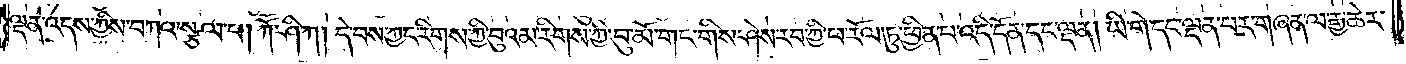ལྡན་འདས་ཀྱིས་བཀའ་སྩལ་པ། ཀཽ་ཤི་ཀ། དེ་བས་ཀྱང་རིགས་ཀྱི་བུའམ་རིགས་ཀྱི་བུ་མོ་གང་གིས་ཤེས་རབ་ཀྱི་ཕ་རོལ་ཏུ་ཕྱིན་པ་འདི་དོན་དང་ལྡན། ཡི་གེ་དང་ལྡན་པར་གཞན་ལ་རྒྱ་ཆེར་
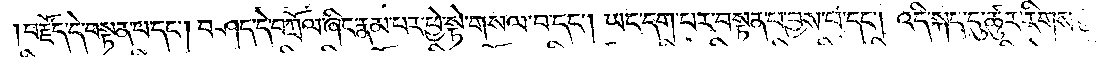བརྗོད་དེ་བསྟན་པ་དང༌། བཤད་དེ་བཀྲོལ་ཞིང་རྣམ་པར་ཕྱེ་སྟེ་གསལ་བ་དང༌། ཡང་དག་པར་བསྟན་པ་བྱས་པ་དང༌། འདི་སྐད་དུ་ཚུར་རིགས་ཀྱི་བུ་
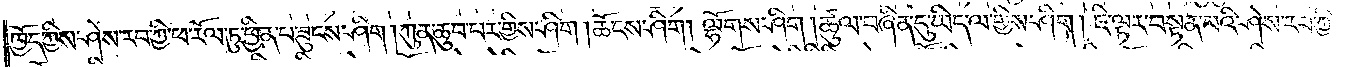ཁྱོད་ཀྱིས་ཤེས་རབ་ཀྱི་ཕ་རོལ་ཏུ་ཕྱིན་པ་ཟུངས་ཤིག །ཀུན་ཆུབ་པར་གྱིས་ཤིག། ཆོངས་ཤིག །ལྷོགས་ཤིག །ཚུལ་བཞིན་དུ་ཡིད་ལ་གྱིས་ཤིག། ཇི་ལྟར་བསྟན་པའི་ཤེས་རབ་ཀྱི་
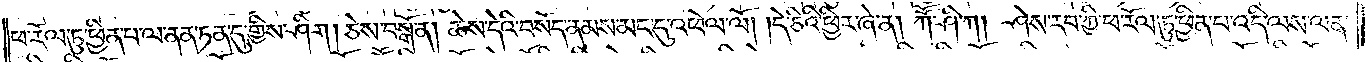ཕ་རོལ་ཏུ་ཕྱིན་པ་ལ་ནན་ཏན་དུ་གྱིས་ཤིག། ཅེས་བསྒོ་ན། ཆེས་དེའི་བསོད་ནམས་མང་དུ་འཕེལ་ལོ། །དེ་ཅིའི་ཕྱིར་ཞེ་ན། །ཀཽ་ཤི་ཀ། ཤེས་རབ་ཀྱི་ཕ་རོལ་ཏུ་ཕྱིན་པ་འདི་ལས་ལན་
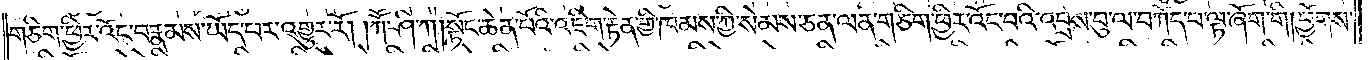གཅིག་ཕྱིར་འོང་བ་རྣམས་ཡོད་པར་འགྱུར་རོ། །ཀཽ་ཤི་ཀ། སྟོང་ཆེན་པོའི་འཇིག་རྟེན་གྱི་ཁམས་ཀྱི་སེམས་ཅན་ལན་གཅིག་ཕྱིར་འོང་བའི་འབྲས་བུ་ལ་བཀོད་པ་ལྟ་ཞོག་གི །ཕྱོགས་
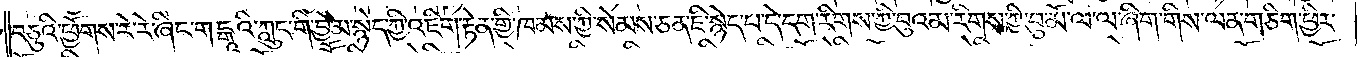བཅུའི་ཕྱོགས་རེ་རེ་ཞིང་གངྒཱའི་ཀླུང་གི་ཕྱེ་མ་སྙེད་ཀྱི་འཇིག་རྟེན་གྱི་ཁམས་ཀྱི་སེམས་ཅན་ཇི་སྙེད་པ་དེ་དག་རིགས་ཀྱི་བུའམ་རིགས་ཀྱི་བུ་མོ་ལ་ལ་ཞིག་གིས་ལན་གཅིག་ཕྱིར་
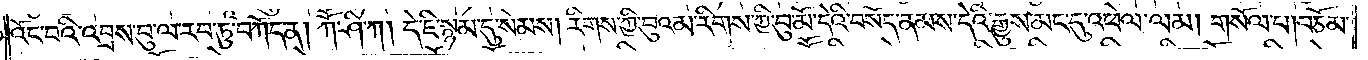འོང་བའི་འབྲས་བུ་ལ་རབ་ཏུ་བཀོད་ན། ཀཽ་ཤི་ཀ། དེ་ཇི་སྙམ་དུ་སེམས། རིགས་ཀྱི་བུའམ་རིགས་ཀྱི་བུ་མོ་དེའི་བསོད་ནམས་དེའི་རྒྱུས་མང་དུ་འཕེལ་ལམ། གསོལ་པ། བཅོམ་
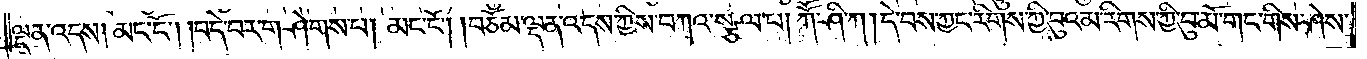ལྡན་འདས། མང་ང༌། །བདེ་བར་གཤེགས་པ། མང་ངོ༌། །བཅོམ་ལྡན་འདས་ཀྱིས་བཀའ་སྩལ་པ། ཀཽ་ཤི་ཀ། དེ་བས་ཀྱང་རིགས་ཀྱི་བུའམ་རིགས་ཀྱི་བུ་མོ་གང་གིས་ཤེས་
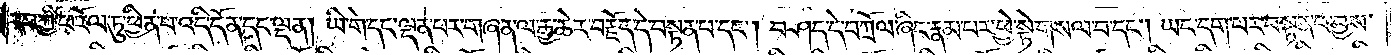རབ་ཀྱི་ཕ་རོལ་ཏུ་ཕྱིན་པ་འདི་དོན་དང་ལྡན། ཡི་གེ་དང་ལྡན་པར་གཞན་ལ་རྒྱ་ཆེར་བརྗོད་དེ་བསྟན་པ་དང༌། བཤད་དེ་བཀྲོལ་ཞིང་རྣམ་པར་བྱེ་སྟེ་གསལ་བ་དང༌། ཡང་དག་པར་བསྟན་པ་བྱས་
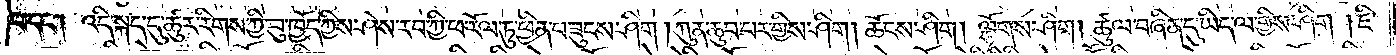པ་དང༌། འདི་སྐད་དུ་ཚུར་རིགས་ཀྱི་བུ་ཁྱོད་ཀྱིས་ཤེས་རབ་ཀྱི་ཕ་རོལ་ཏུ་ཕྱིན་པ་ཟུངས་ཤིག། ཀུན་ཆུབ་པར་གྱིས་ཤིག། ཆོངས་ཤིག། ལྷོགས་ཤིག། ཚུལ་བཞིན་དུ་ཡིད་ལ་གྱིས་ཤིག། ཇི་
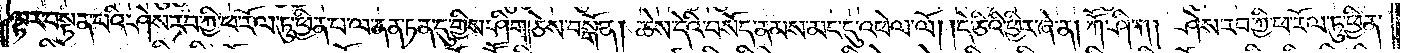ལྟར་བསྟན་པའི་ཤེས་རབ་ཀྱི་ཕ་རོལ་ཏུ་ཕྱིན་པ་ལ་ནན་ཏན་དུ་གྱིས་ཤིག། ཅེས་བསྒོ་ན། ཆེས་དེའི་བསོད་ནམས་མང་དུ་འཕེལ་ལོ། །དེ་ཅིའི་ཕྱིར་ཞེ་ན། ཀཽ་ཤི་ཀ། ཤེས་རབ་ཀྱི་ཕ་རོལ་ཏུ་ཕྱིན་
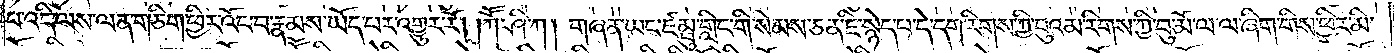པ་འདི་ལས་ལན་གཅིག་ཕྱིར་འོང་བ་རྣམས་ཡོད་པར་འགྱུར་རོ། །ཀཽ་ཤི་ཀ། གཞན་ཡང་ཛམྦུ་གླིང་གི་སེམས་ཅན་ཇི་སྙེད་བ་དེ་དག་རིགས་ཀྱི་བུའམ་རིགས་ཀྱི་བུ་མོ་ལ་ལ་ཞིག་གིས་ཕྱིར་མི་
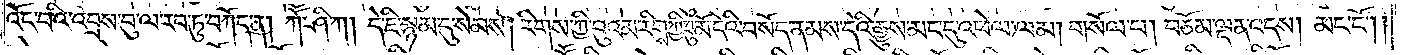འོང་བའི་འབྲས་བུ་ལ་རབ་ཏུ་བཀོད་ན། ཀཽ་ཤི་ཀ། དེ་ཇི་སྙམ་དུ་སེམས། རིགས་ཀྱི་བུའམ་རིགས་ཀྱི་བུ་མོ་དེའི་བསོད་ནམས་དེའི་རྒྱུས་མང་དུ་འཕེལ་ལམ། གསོལ་པ། བཅོམ་ལྡན་འདས། མང་ངོ༌། །
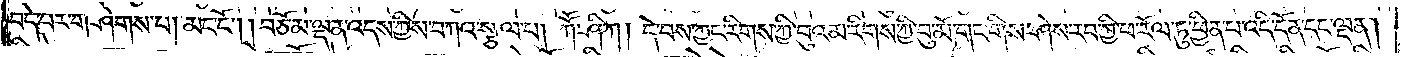བདེ་བར་གཤེགས་པ། མང་ངོ༌། །བཅོམ་ལྡན་འདས་ཀྱིས་བཀའ་སྩལ་པ། ཀཽ་ཤི་ཀ། དེ་བས་ཀྱང་རིགས་ཀྱི་བུའམ་རིགས་ཀྱི་བུ་མོ་གང་གིས་ཤེས་རབ་ཀྱི་ཕ་རོལ་ཏུ་ཕྱིན་པ་འདི་དོན་དང་ལྡན།
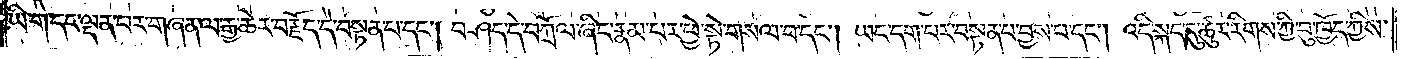ཡི་གེ་དང་ལྡན་པར་གཞན་ལ་རྒྱ་ཆེར་བརྗོད་དེ་བསྟན་པ་དང༌། བཤད་དེ་བཀྲོལ་ཞིང་རྣམ་པར་ཕྱེ་སྟེ་གསལ་བ་དང༌། ཡང་དག་པར་བསྟན་པ་བྱས་པ་དང༌། འདི་སྐད་དུ་ཚུར་རིགས་ཀྱི་བུ་ཁྱོད་ཀྱིས་
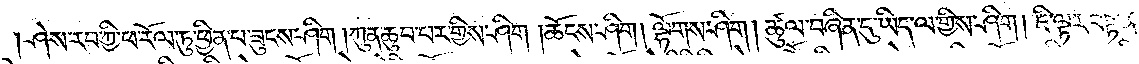ཤེས་རབ་ཀྱི་ཕ་རོལ་ཏུ་ཕྱིན་པ་ཟུངས་ཤིག །ཀུན་ཆུབ་བར་གྱིས་ཤིག །ཆོངས་ཤིག། ལྟོགས་ཤིག། ཚུལ་བཞིན་དུ་ཡིད་ལ་གྱིས་ཤིག །ཇི་ལྟར་བསྟན་
